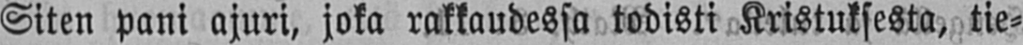Siten pani ajuri, joka rakkaudessa todisti Kristuksesta, tie-
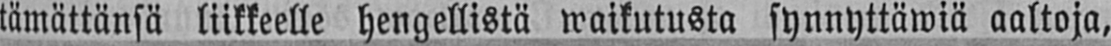tämättänsä liikkeelle hengellistä waikutusta synnyttäwiä aaltoja,
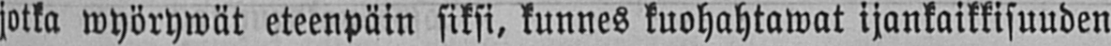jotka wyörywät eteenpäin siksi, kunnes kuohahtawat ijankaikkisuuden
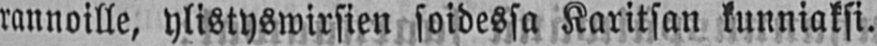rannoille, ylistyswirsien soidessa Karitsan kunniaksi.
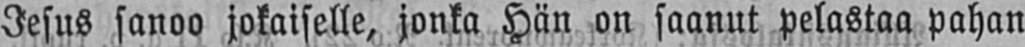Jesus sanoo jokaiselle, jonka Hän on saanut pelastaa pahan
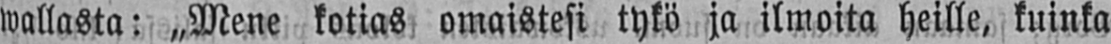wallasta: „Mene kotias omaistesi tykö ja ilmoita heille, kuinka
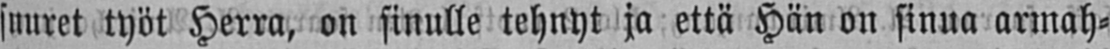suuret työt Herra, on sinulle tehnyt ja että Hän on sinua armah-
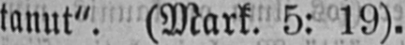tanut". (Mark.5:19).
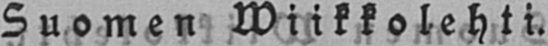Suomen wiikkolehti.
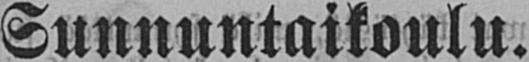Sunnuntaikoulu.
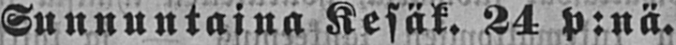Sunnuntaina Kesäk. 24 p:nä.
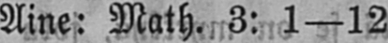Aine: Math. 3: 1—12.
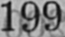199
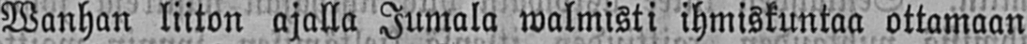Wanhan liiton ajalla Jumala walmisti ihmiskuntaa ottamaan
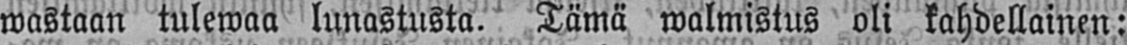wastaan tulewaa lunastusta. Tämä walmistus oli kahdellainen:
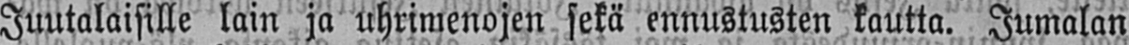Juutalaisille lain ja uhrimenojen sekä ennustusten kautta. Jumalan
